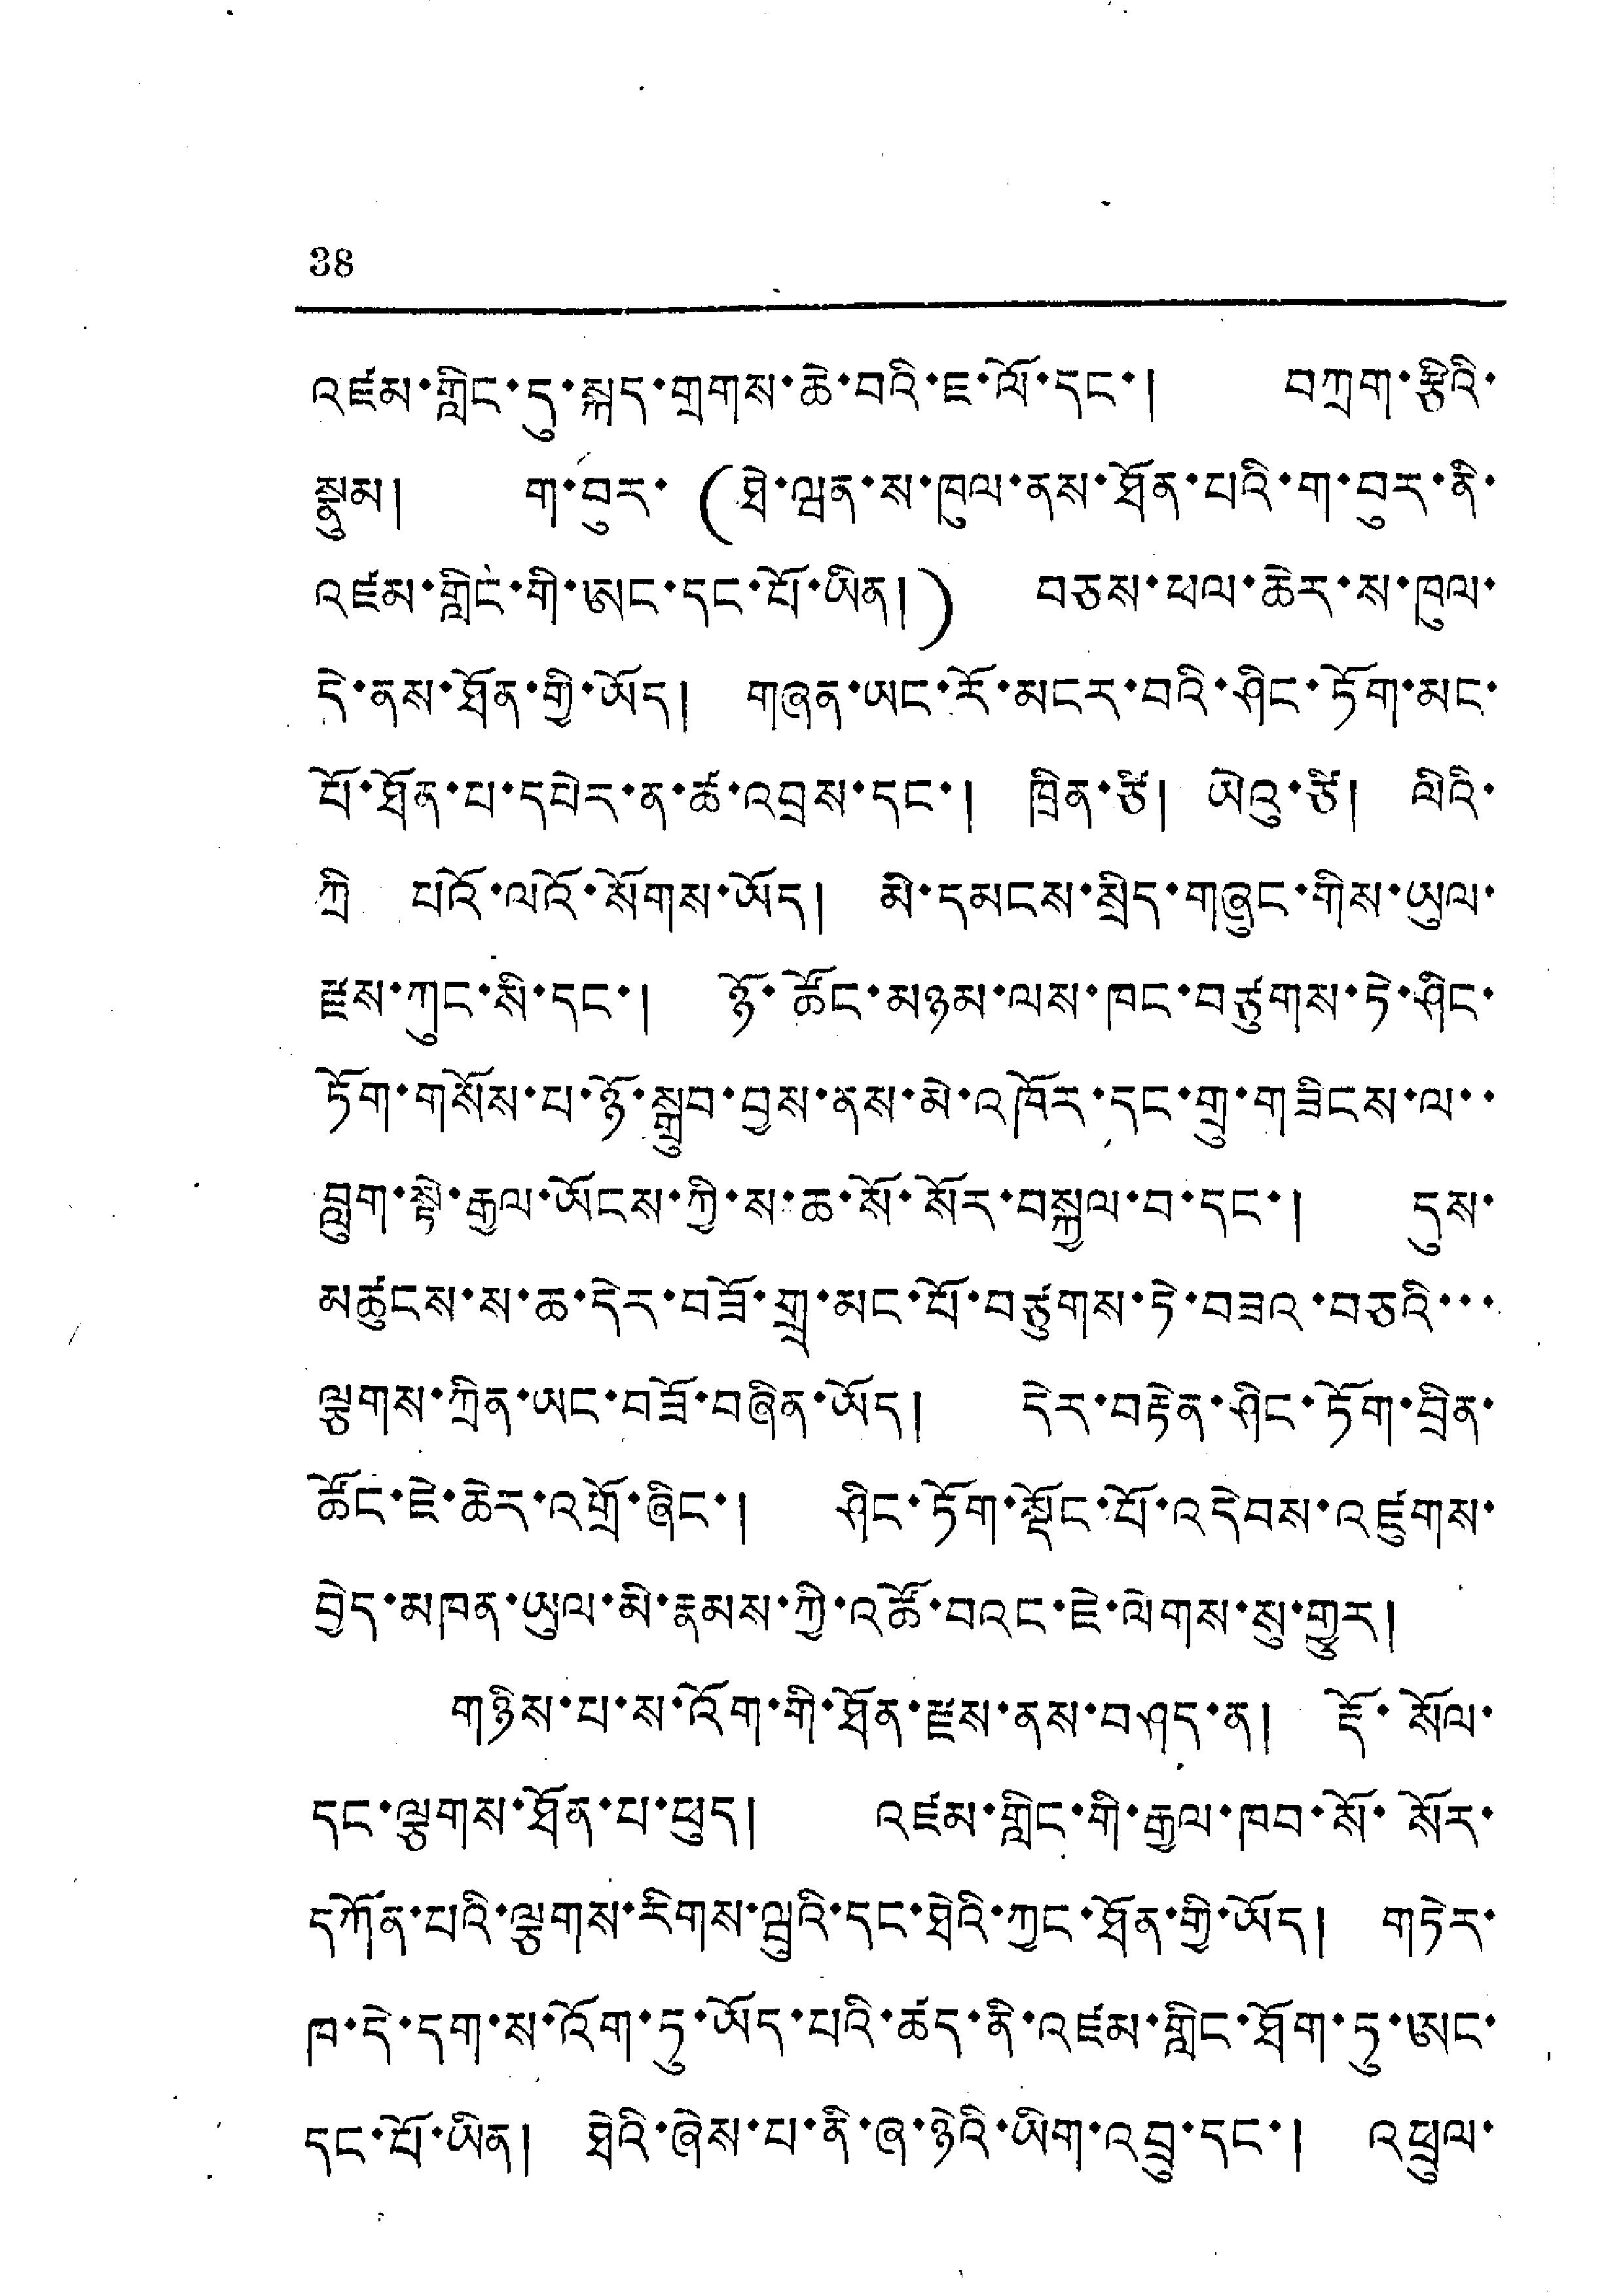38
འཛམ་གླིང་དུ་སྐད་གྲགས་ཆེ་བའི་ཇ་ལོ་དང་། བཀྲག་རྩིའི་
རྣུམ། ག་བུར་(ཐེ་ཝན་ས་ཁུལ་ནས་ཐོན་པའི་ག་བུར་ནི་
འཛམ་གླིང་གི་ཨང་དང་པོ་ཡིན།) བཅས་ཕལ་ཆེར་ས་ཁུལ་
དེ་ནས་ཐོན་གྱི་ཡོད། གཞན་ཡང་རོ་མངར་བའི་ཤིང་ཏོག་མང་
པོ་ཐོན་པ་དཔེར་ན་ཚ་འབྲས་དང་། ཁྲིན་ཙི། ཡེའུ་ཙི། ལིའི་
ཀྲི པའོ་ལའོ་སོགས་ཡོད། མི་དམངས་སྲིད་གཞུང་གིས་ཡུལ་
རྫས་ཀུང་སི་དང་། ཉོ་ཚོང་མཉམ་ལས་ཁང་བཙུགས་ཏེ་ཤིང་
ཏོག་གསོས་པ་ཉོ་སྒྲུབ་བྱས་ནས་མེ་འཁོར་དང་གྲུ་གཟིངས་ལ་་
བླུག་སྟེ་རྒྱལ་ཡོངས་ཀྱི་ས་ཆ་སོ་སོར་བསྐྱལ་བ་དང་། དུས་
མཚུངས་ས་ཆ་དེར་བཟོ་གྲྭ་མང་པོ་བཙུགས་ཏེ་བཟའ་བཅའི་་་
ལྕགས་ཀྲིན་ཡང་བཟོ་བཞིན་ཡོད། དེར་བརྟེན་ཤིང་ཏོག་བྲིན་
ཚོང་ཇེ་ཆེར་འགྲོ་ཞིང་། ཤིང་ཏོག་སྡོང་པོ་འདེབས་འཛུགས་
བྱེད་མཁན་ཡུལ་མི་རྣམས་ཀྱི་འཚོ་བའང་ཇེ་ལེགས་སུ་གྱུར།
གཉིས་པ་ས་འོག་གི་ཐོན་རྫས་ནས་བཤད་ན། རྡོ་སོལ་
དང་ལྕགས་ཐོན་པ་ཕུད། འཛམ་གླིང་གི་རྒྱལ་ཁབ་སོ་སོར་
དཀོན་པའི་ལྕགས་རིགས་ཝུའི་དང་ཐེའི་ཀྱང་ཐོན་གྱི་ཡོད། གཏེར་
ཁ་དེ་དག་ས་འོག་ཏུ་ཡོད་པའི་ཚད་ནི་འཛམ་གླིང་ཐོག་ཏུ་ཨང་
དང་པོ་ཡིན། ཐེའི་ཞེས་པ་ནི་ཞ་ཉེའི་ཡིག་འབྲུ་དང་། འཕྲུལ་
